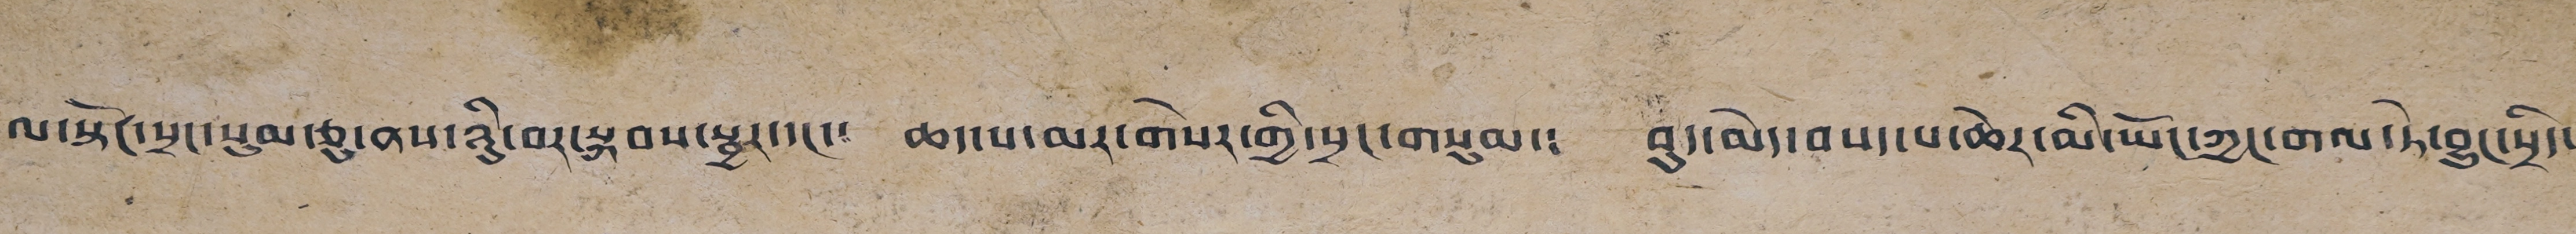ལ་སྟོང་སྲང་སུམ་ཅུ་ནས་ཉིུ་བར་སྐབས་སྦྱར་དང་༴ ཆད་པ་མར་གསེར་གྱི་སྲང་གསུམ་༴ བུད་མེད་བསད་པ་ཆེར་མི་ཡོང་ཀྱང་གལ་ཏེ་བྱུང་སྲིད་
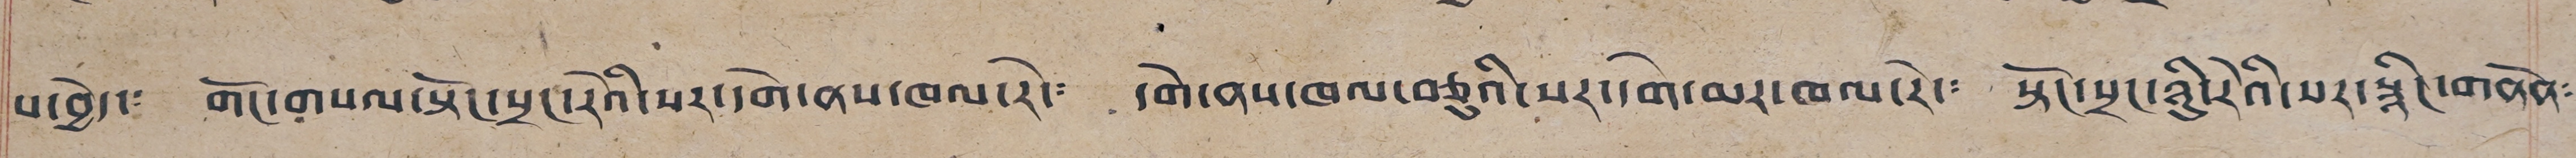པ་བྱེད་༴ གོང་གསལ་སྟོང་སྲང་རེའི་སར་དགེ་ནས་ཁལ་རེ་༴ དགེ་ནས་ཁལ་བཅུའི་སར་དགེ་མར་ཁལ་རེ་༴ སྟོང་སྲང་ཉིུ་རེའི་པར་སྙིང་གནོན༴
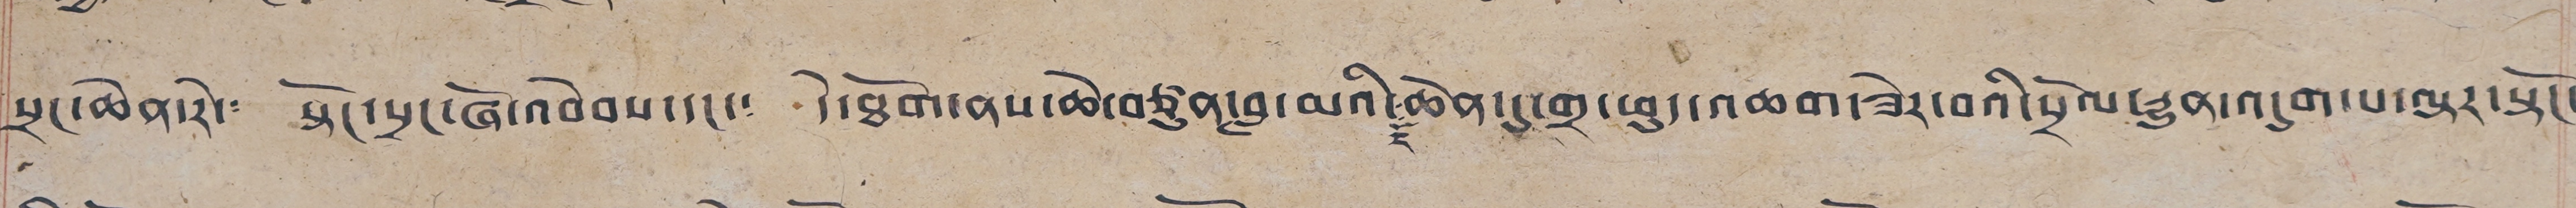སྲང་ཆེན་རེ་༴ སྟོང་སྲང་ཞོ་འབེབས་དང་༴ དེ་ཐོག་ནས་ཆེ་བཙུན་བླ་མའི་ངོ་ཆེན་དུ་གྲ་ཕུད་འཆག་ཟེར་བའི་སྲོལ་རྒྱུན་འདུག་པ་ལྟར་སྟོང་
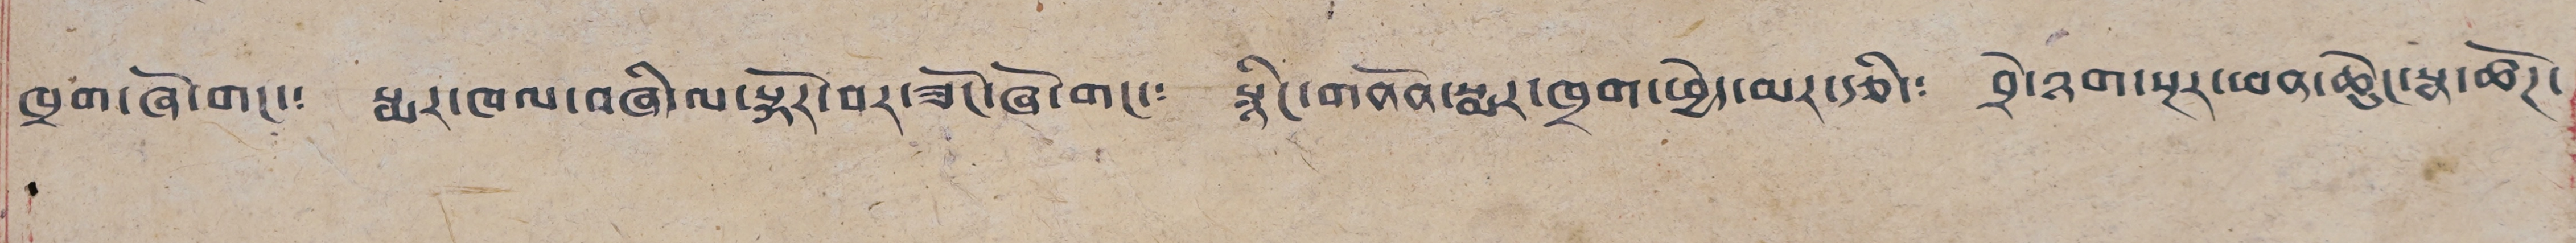ཁྲག་ཞེ་གང་༴ སྨར་ཁལ་བཞི་ལ་སྐོར་བར་ཟོང་ཞོ་གང་༴ སྙིང་གནོན་སྨར་ཁྲག་ཕྱེད་མར་རྩི་༏ བྲེ་ཉག་སྔར་ཕན་ཆེུང་སྣ་ཚོཊ་
